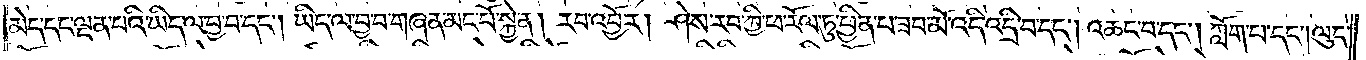མེད་དང་ལྡན་པའི་ཡིད་ལ་བྱ་བ་དང༌། ཡིད་ལ་བྱ་བ་གཞན་མང་པོ་སྐྱེ་ན། རབ་འབྱོར། ཤེས་རབ་ཀྱི་ཕ་རོལ་ཏུ་ཕྱིན་པ་ཟབ་མོ་འདི་འདྲི་བ་དང༌། འཆང་བ་དང༌། ཀློག་པ་དང༌། ལུང་
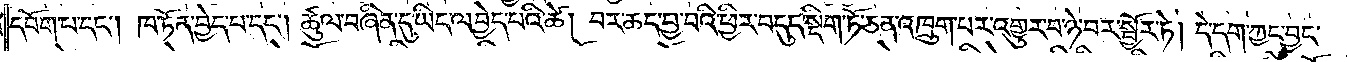དབོག་པ་དང༌། ཁ་ཏོན་བྱེད་པ་དང༌། ཚུལ་བཞིན་དུ་ཡིད་ལ་བྱེད་པའི་ཚེ། བར་ཆད་བྱ་བའི་ཕྱིར་བདུད་སྡིག་ཏོ་ཅན་འཁྲུག་པར་འགྱུར་བ་ཉེ་བར་སྦྱོར་ཏེ། དེ་དག་ཀྱང་བྱང་
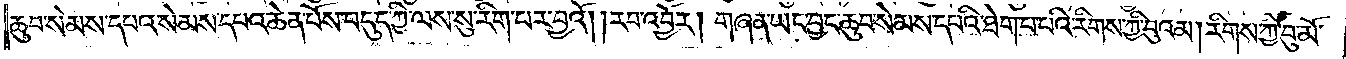ཆུབ་སེམས་དཔའ་སེམས་དཔའ་ཆེན་པོས་བདུད་ཀྱི་ལས་སུ་རིག་པར་བྱའོ། །རབ་འབྱོར། གཞན་ཡང་བྱང་ཆུབ་སེམས་དཔའི་ཐེག་པ་པའི་རིགས་ཀྱི་བུའམ། རིགས་ཀྱི་བུ་མོ་
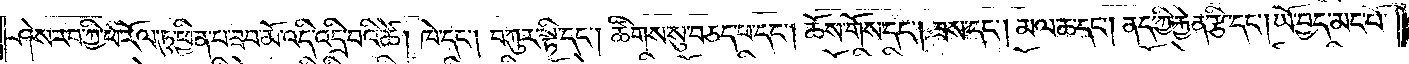ཤེས་རབ་ཀྱི་ཕ་རོལ་ཏུ་ཕྱིན་པ་ཟབ་མོ་འདི་འདྲི་བའི་ཚེ། ཁེ་དང༌། བཀུར་སྟི་དང༌། ཚིགས་སུ་བཅད་པ་དང༌། ཆོས་གོས་དང༌། ཟས་དང༌། མལ་ཆ་དང༌། ནད་ཀྱི་རྐྱེན་རྩི་དང༌། ཡོ་བྱད་མང་པོ་
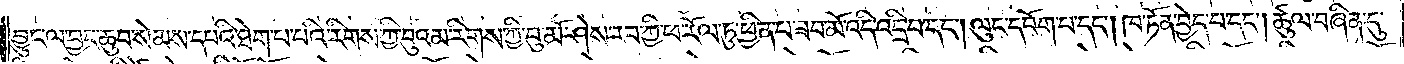བྱུང་ལ་བྱང་ཆུབ་སེམས་དཔའི་ཐེག་པ་པའི་རིགས་ཀྱི་བུའམ་རིགས་ཀྱི་བུ་མོ་ཤེས་རབ་ཀྱི་ཕ་རོལ་ཏུ་ཕྱིན་པ་ཟབ་མོ་འདི་འདྲི་བ་དང༌། ལུང་དབོག་པ་དང༌། ཁ་ཏོན་བྱེད་པ་དང༌། ཚུལ་བཞིན་དུ་
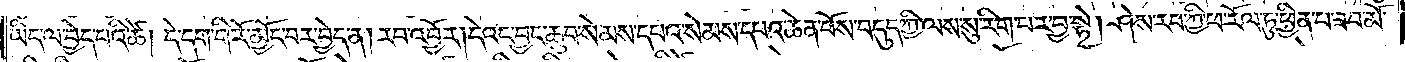ཡིད་ལ་བྱེད་པའི་ཚེ། དེ་དག་གི་རོ་མྱོང་བར་བྱེད་ན། རབ་འབྱོར། དེའང་བྱང་ཆུབ་སེམས་དཔའ་སེམས་དཔའ་ཆེན་པོས་བདུད་ཀྱི་ལས་སུ་རིག་པར་བྱ་སྟེ། ཤེས་རབ་ཀྱི་ཕ་རོལ་ཏུ་ཕྱིན་པ་ཟབ་མོ་
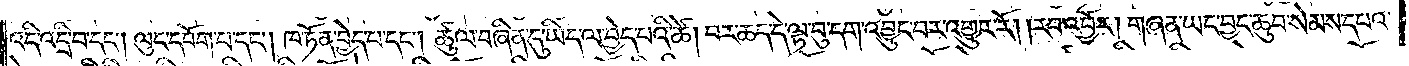འདི་འདྲི་བ་དང༌། ལུང་དབོག་པ་དང༌། ཁ་ཏོན་བྱེད་པ་དང༌། ཚུལ་བཞིན་དུ་ཡིད་ལ་བྱེད་པའི་ཚེ། བར་ཆད་དེ་ལྟ་བུ་དག་འབྱུང་བར་འགྱུར་རོ། །རབ་འབྱོར། གཞན་ཡང་བྱང་ཆུབ་སེམས་དཔའ་
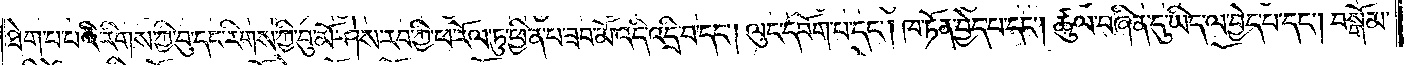ཐེག་པ་པའི་རིགས་ཀྱི་བུ་དང་རིགས་ཀྱི་བུ་མོ་ཤེས་རབ་ཀྱི་ཕ་རོལ་ཏུ་ཕྱིན་པ་ཟབ་མོ་འདི་འདྲི་བ་དང༌། ལུང་དབོག་པ་དང༌། ཁ་ཏོན་བྱེད་པ་དང༌། ཚུལ་བཞིན་དུ་ཡིད་ལ་བྱེད་པ་དང༌། བསྒོམ་
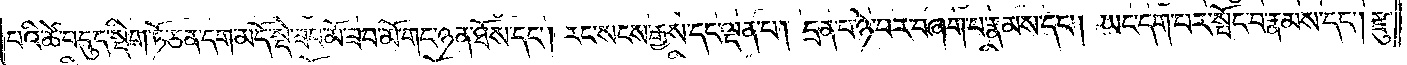པའི་ཚེ་བདུད་སྡིག་ཏོ་ཅན་དག་མདོ་སྡེ་ཟབ་མོ་ཟབ་མོ་གང་ཉན་ཐོས་དང༌། རང་སངས་རྒྱས་དང་ལྡན་པ། དྲན་པ་ཉེ་བར་བཞག་པ་རྣམས་དང༌། ཡང་དག་པར་སྤོང་བ་རྣམས་དང༌། རྫུ་
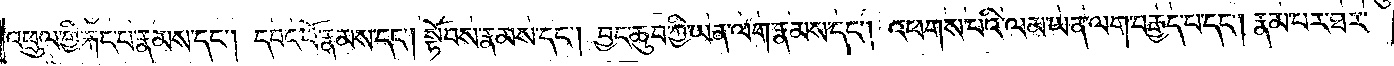འཕྲུལ་གྱི་རྐང་པ་རྣམས་དང༌། དབང་པོ་རྣམས་དང༌། སྟོབས་རྣམས་དང༌། བྱང་ཆུབ་ཀྱི་ཡན་ལག་རྣམས་དང༌། འཕགས་པའི་ལམ་ཡན་ལག་བརྒྱད་པ་དང༌། རྣམ་པར་ཐར་
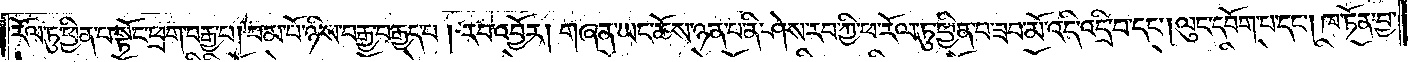རོལ་ཏུ་ཕྱིན་པ་སྟོང་ཕྲག་བརྒྱ་པ། །བམ་པོ་ཉིས་བརྒྱ་བརྒྱད་པ། །རབ་འབྱོར། གཞན་ཡང་ཆོས་ཉན་པ་ནི་ཤེས་རབ་ཀྱི་ཕ་རོལ་ཏུ་ཕྱིན་པ་ཟབ་མོ་འདི་འདྲི་བ་དང༌། ལུང་དབོག་པ་དང༌། ཁ་ཏོན་བྱ་
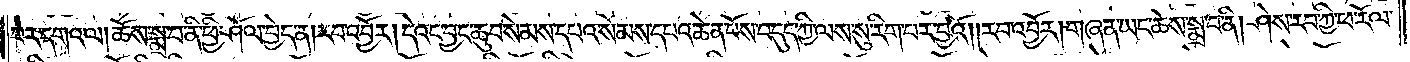བར་དགའ་ལ། ཆོས་སྨྲ་བ་ནི་ཕྱི་ཤོལ་བྱེད་ན། རབ་འབྱོར། དེའང་བྱང་ཆུབ་སེམས་དཔའ་སེམས་དཔའ་ཆེན་པོས་བདུད་ཀྱི་ལས་སུ་རིག་པར་བྱའོ། །རབ་འབྱོར། གཞན་ཡང་ཆོས་སྨྲ་བ་ནི། ཤེས་རབ་ཀྱི་ཕ་རོལ་
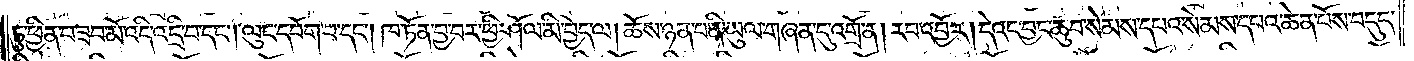ཏུ་ཕྱིན་པ་ཟབ་མོ་འདི་འདྲི་བ་དང༌། ལུང་དབོག་པ་དང༌། ཁ་ཏོན་བྱ་བར་ཕྱིར་ཤོལ་མི་བྱེད་ལ། ཆོས་ཉན་པ་ནི་ཡུལ་གཞན་དུ་འགྲོ་ན། རབ་འབྱོར། དེའང་བྱང་ཆུབ་སེམས་དཔའ་སེམས་དཔའ་ཆེན་པོས་བདུད་
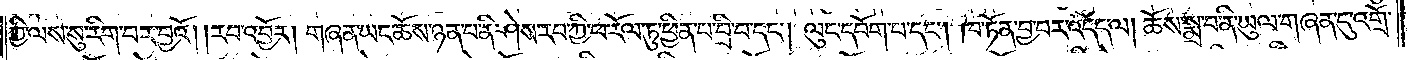ཀྱི་ལས་སུ་རིག་པར་བྱའོ། །རབ་འབྱོར། གཞན་ཡང་ཆོས་ཉན་པ་ནི་ཤེས་རབ་ཀྱི་ཕ་རོལ་ཏུ་ཕྱིན་པ་བྲི་བ་དང༌། ལུང་དབོག་པ་དང༌། ཁ་ཏོན་བྱ་བར་འདོད་ལ། ཆོས་སྨྲ་བ་ནི་ཡུལ་གཞན་དུ་འགྲོ་
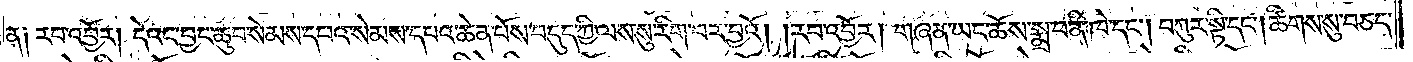ན༑ རབ་འབྱོར། དེའང་བྱང་ཆུབ་སེམས་དཔའ་སེམས་དཔའ་ཆེན་པོས་བདུད་ཀྱི་ལས་སུ་རིག་པར་བྱའོ། །རབ་འབྱོར། གཞན་ཡང་ཆོས་སྨྲ་བ་ནི་ཁེ་དང༌། བཀུར་སྟི་དང༌། ཚིགས་སུ་བཅད་
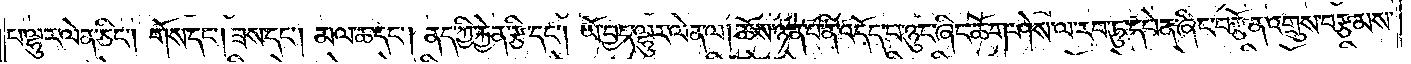པ་ལྷུར་ལེན་ཅིང༌། གོས་དང༌། ཟས་དང༌། མལ་ཆ་དང༌། ནད་ཀྱི་རྐྱེན་རྩི་དང༌། ཡོ་བྱད་ལྷུར་ལེན་ལ། ཆོས་ཉན་པ་ནི་འདོད་པ་ཉུང་ཞིང་ཆོག་ཤེས་ལ་རབ་ཏུ་དབེན་ཞིང་བརྩོན་འགྲུས་བརྩམས་
